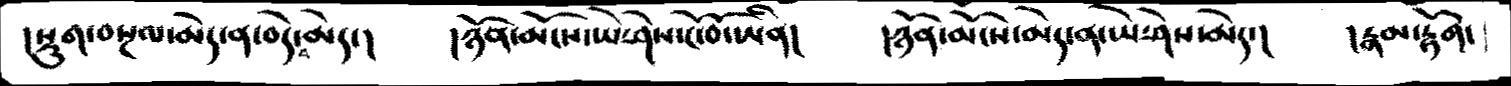།སྡུག་བསྔལ་མེད་ན་བདེ་བ་མེད་།  །ཉོན་མོངས་ཡེ་ཤེས་ངོ་བོ་ཡིན།  །ཉོན་མོངས་མེད་ན་ཡེ་ཤེས་མེད་།  །རྣམ་རྟོག་
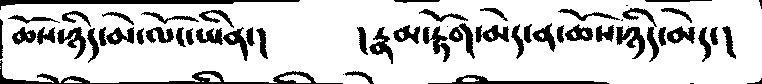ཆོས་ཉིད་མེ་ལོང་ཡིན་།  །རྣམ་རྟོག་མེད་ན་ཆོས་ཉིད་མེད་།
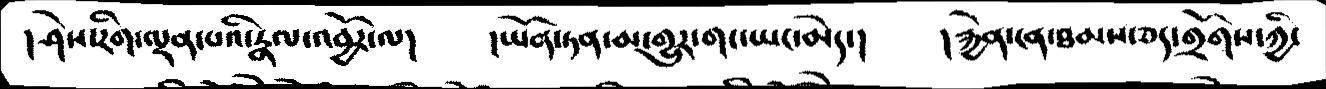།ཤེས་རིག་ལྡན་པའི་རྣལ་འབྱོར་ལ།  །ཡོན་ཏན་མ་གྱུར་གང་ཡང་མེད་།  །རྐྱེན་ངན་ཐམས་ཅད་གྲོགས་ཀྱི་
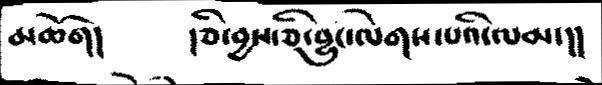མཆོག།   །ཅི་བྱས་ཅི་བྱུང་ལེགས་པའི་ལམ་།།
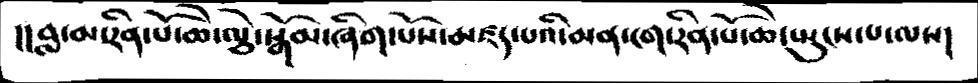།།བླ་མ་རིན་པོ་ཆེ་ལྕེ་སྒོམ་ཞིག་པོས་མཛད་པའི་མན་ངག་རིན་པོ་ཆེ་སྤུངས་པ་ལས།
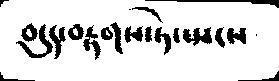བདུད་བརྟགས་ཏེ་སྤངས
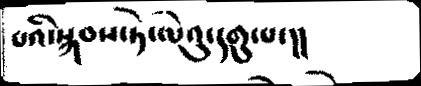པའི་སྐབས་ཏེ་ལེའུ་དགུ་པ་།།
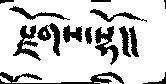རྫོགས་སྷོ།།
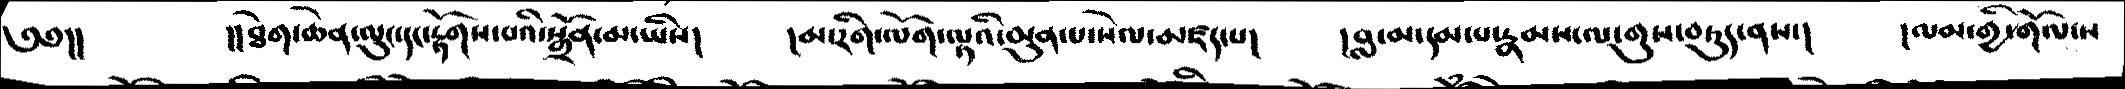༄༅།།   །།ཐེག་ཆེན་ལུང་དང་རྟོགས་པའི་སྒྲོན་མ་ཡིས།  །མ་རིག་ལོག་ལྟའི་མུན་པ་སེལ་མཛད་པ།  །བླ་མ་དམ་པ་རྣམས་ལ་གུས་བཏུད་ནས་།   །ལམ་གྱི་གོལ་ས
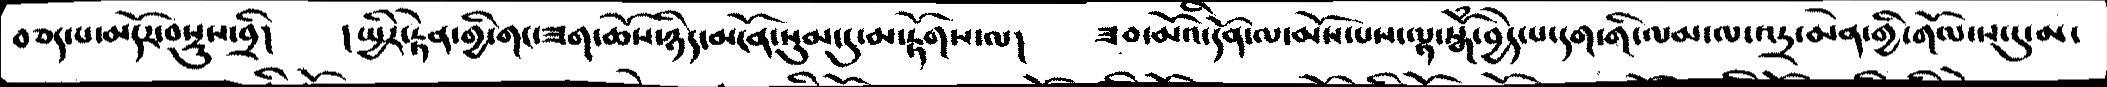བཅད་པ་མདོར་བསྡུས་བྲི།   །སྤྱིར་རྟེན་གྱི་གང་ཟག་ཆོས་ཉིད་མངོན་སུམ་དུ་མ་རྟོགས་ལ།  ཟབ་མོའི་དོན་ལ་མོས་པས་ལྟ་སྒོཾ་བྱེད་པ་དག་གི་ལམ་ལ་འདྲ་མེན་གྱི་གོལ་ས་དུ་མ་
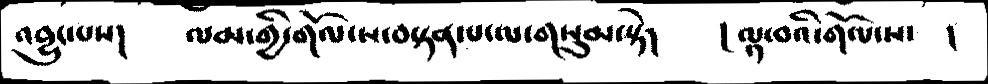འབྱུང་པས།   ལམ་གྱི་གོལ་ས་བསྟན་པ་ལ་གསུམ་སྟེ།   །ལྟ་བའི་གོལ་ས་  །
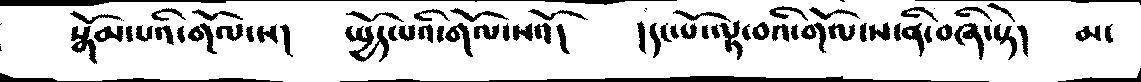སྒོམ་པའི་གོལ་ས།  སྤྱོད་པའི་གོལ་སའོ།   །དང་པོ་ལྟ་བའི་གོལ་ས་ནི་བཞི་ཏེ།  མ་
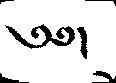༄༅།
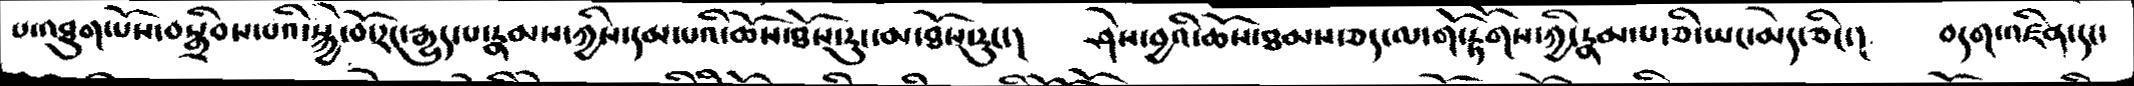པ་འཐུག་པོས་བསྒྲིབས་པའི་སྐྱེ་བོ་རང་རྒྱུད་པ་རྣམས་ཀྱིས་དམ་པའི་ཆོས་ཐོས་རུང་མ་ཐོས་རུང་།  ཤེས་བྱའི་ཆོས་ཐམས་ཅད་ལ་གོ་རྟོགས་ཀྱི་རྣམ་པ་ཅི་ཡང་མེད་ཅིང་།  བདག་འཛིན་དང་
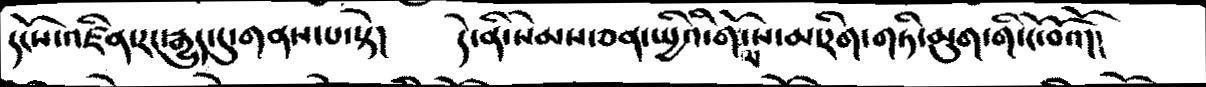དངོས་འཛིན་རང་རྒྱུད་དུ་གནས་སྟེ།  དེ་ནི་སེམས་ཅན་སྤྱིའི་གོལ་ས་མ་རིག་གཏི་མུག་གི་ངོ་བོའོ།།
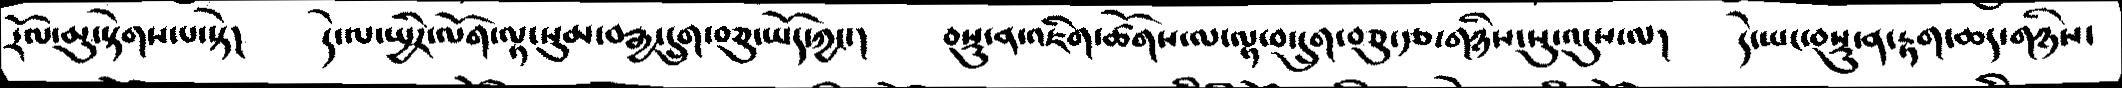རོལ་མུ་སྟེགས་པ་སྟེ།   དེ་ལ་སྤྱིར་ལོག་ལྟ་སུམ་བརྒྱ་དྲུག་བཅུ་ཡོད་ཀྱང་།   བསྡུ་ན་འཇིག་ཚོགས་ལ་ལྟ་བ་དྲུག་བཅུ་རྩ་གཉིས་སུ་འདུས་ལ།   དེ་ཡང་བསྡུ་ན་རྟག་ཆད་གཉིས་
